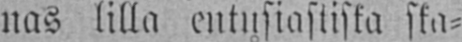nas lilla entusiastiska ska-
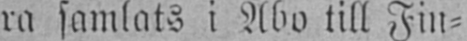ra samlats i Åbo till Fin-
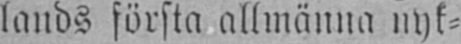lands första allmänna nyk-
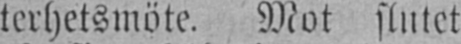terhetsmöte. Mot slutet
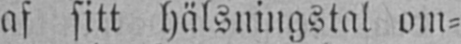af sitt hälsningstal om-
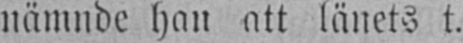nämnde han att länets t.
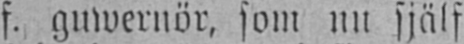f. guwernör, som nu själf
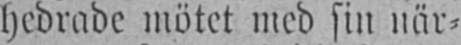hedrade mötet med sin när-
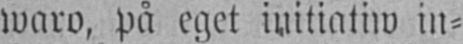waro, på eget initiatiw in-
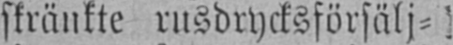skränkte rusdrycksförsälj-
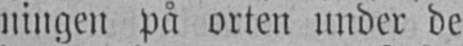ningen på orten under de
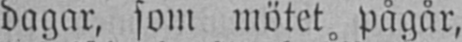dagar, som mötet pågår,
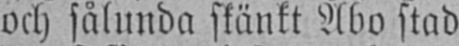och sålunda skänkt Åbo stad
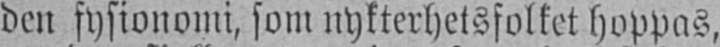den fysionomi, som nykterhetsfolket hoppas,
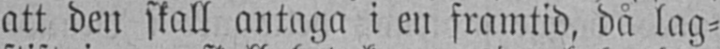att den skall antaga i en framtid, då lag-
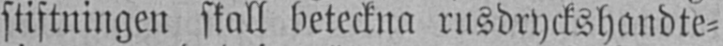stiftningen skall beteckna rusdryckshandte-
